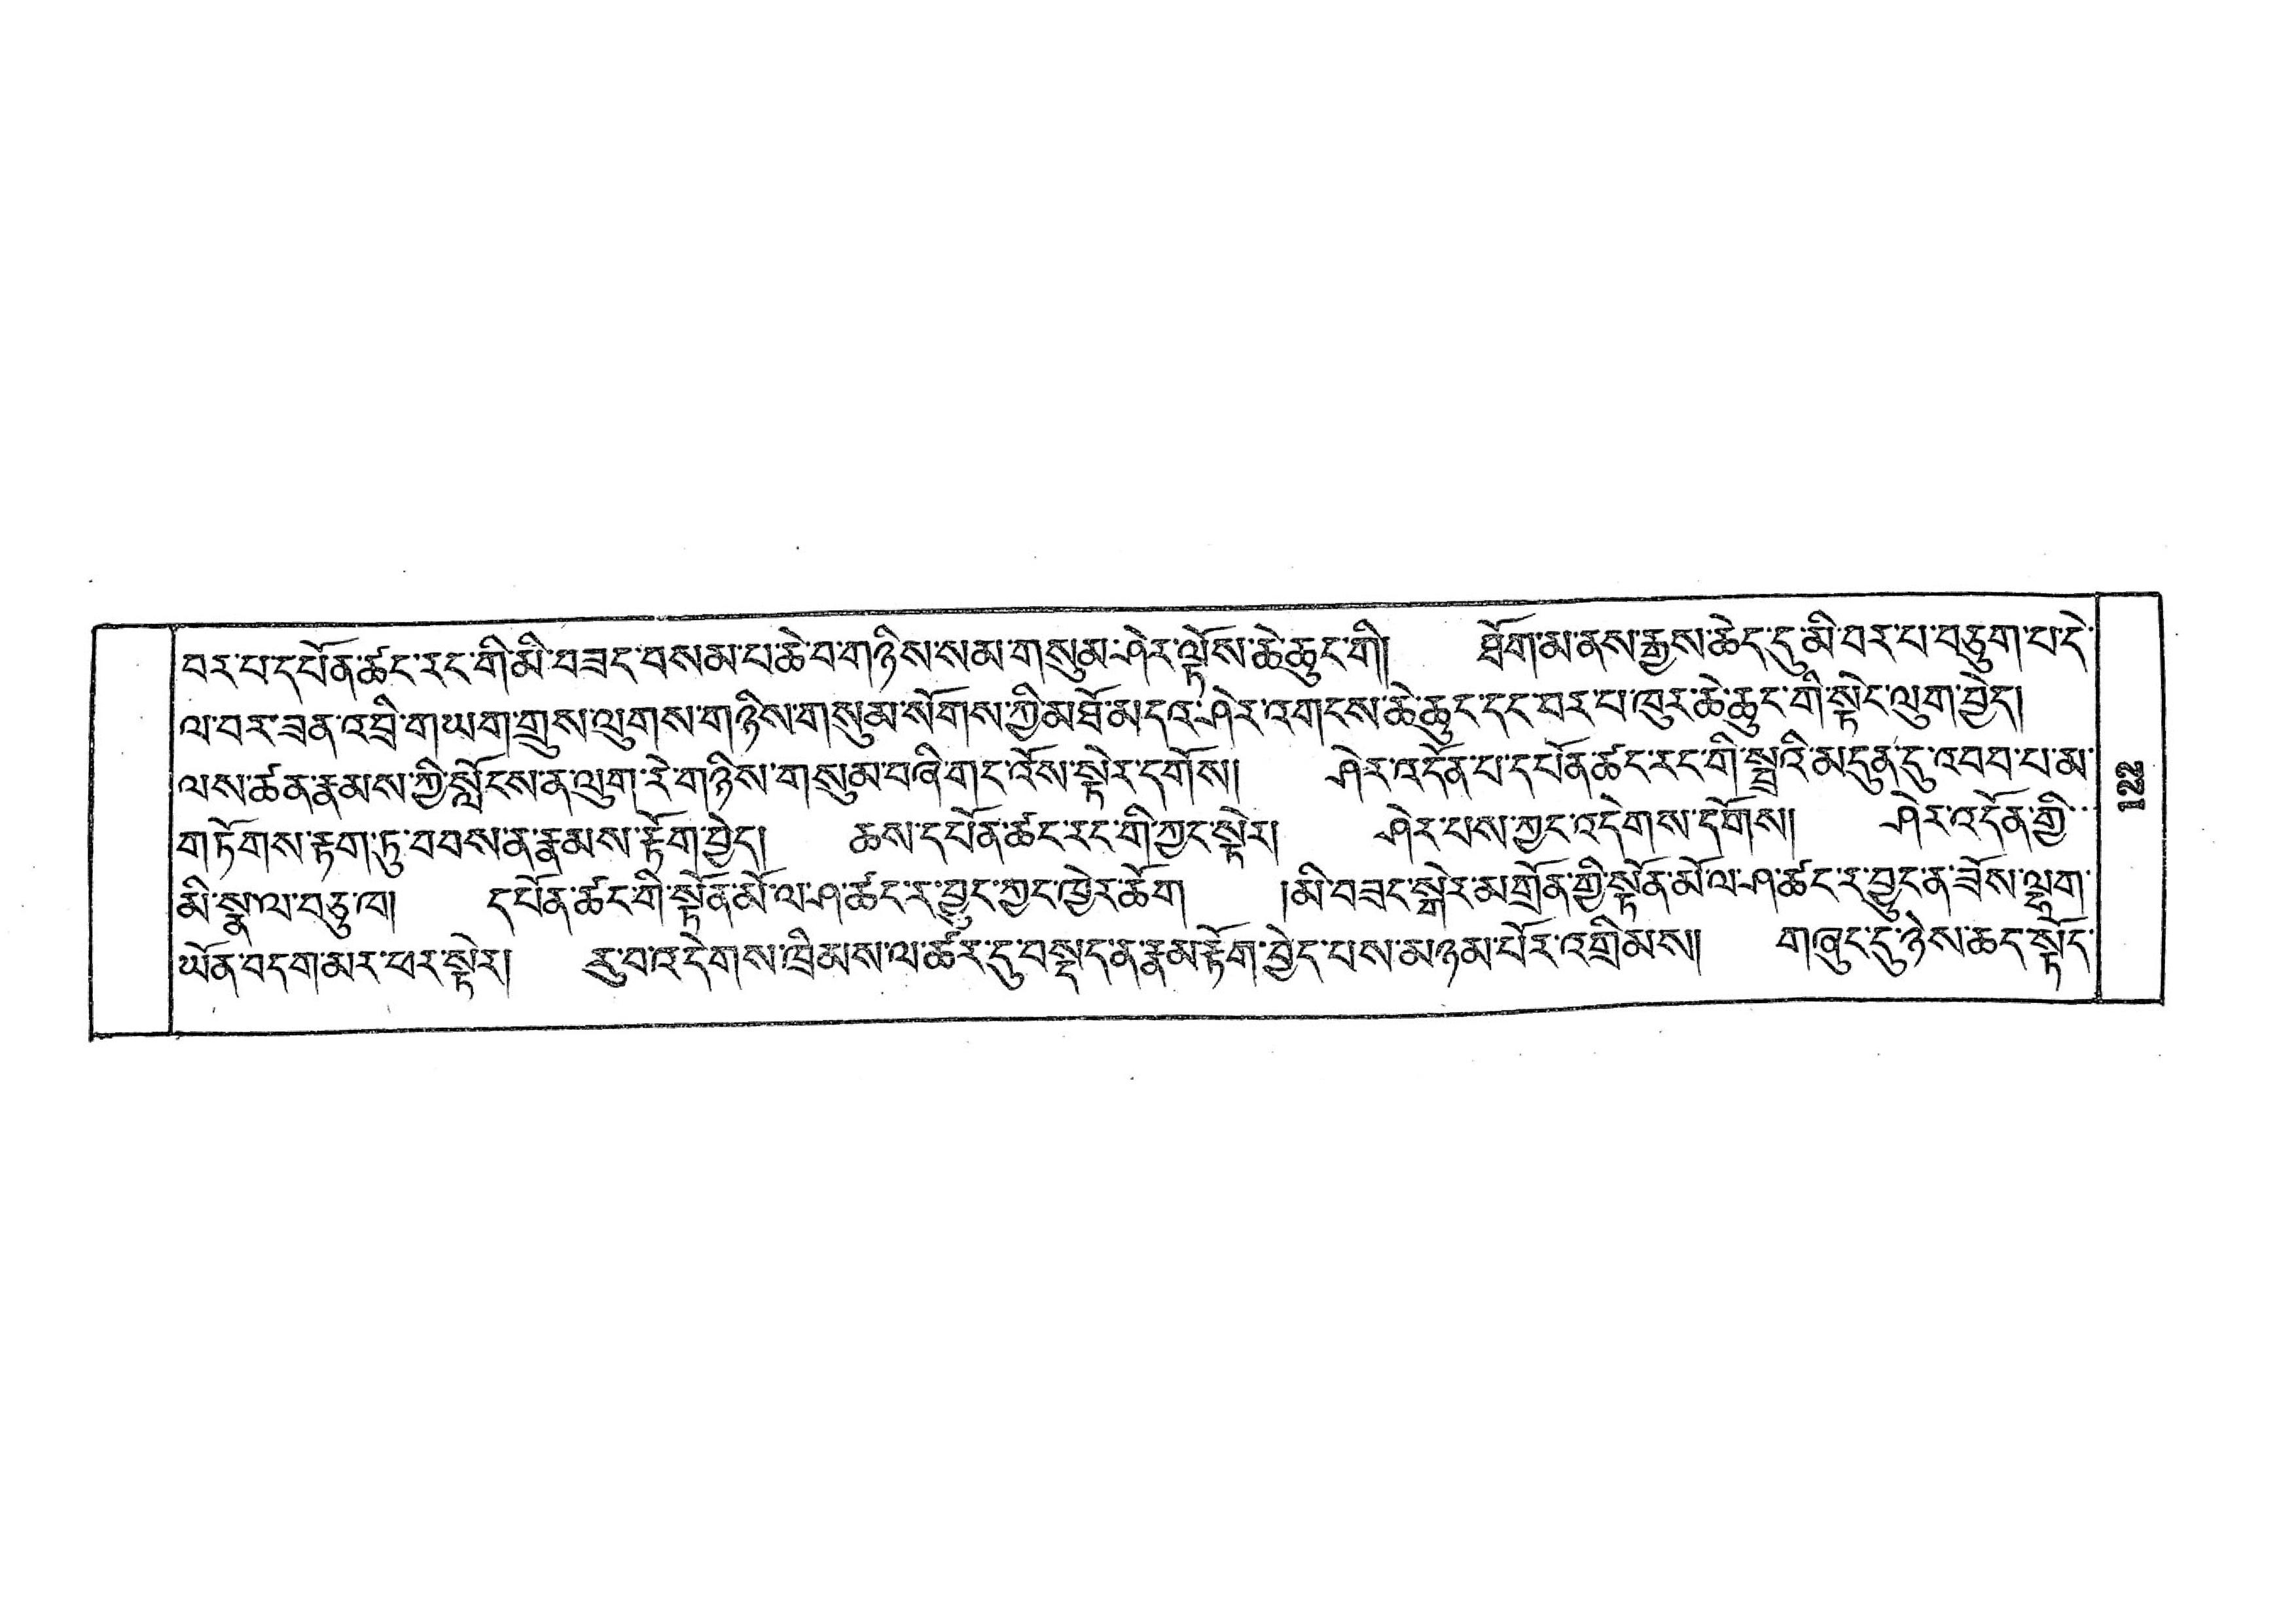བར་པ་དཔོན་ཚང་རང་གི་མི་བཟང་བསམ་པ་ཆེ་བ་གཉིས་སམ་གསུམ་ཤེར་ལྟོས་ཆེ་ཆུང་གི། ཐོག་མ་ནས་རྒྱས་ཆེད་དུ་མི་བར་པ་བཅུག་པ་དེ་
ལ་བར་ཟན་འབྲི་གཡག་གྲུས་ལུགས་གཉིས་གསུམ་སོགས་ཀྱི་མཐོ་མདའ་ཤེར་འགངས་ཆེ་ཆུང་དང་བར་པ་ཁུར་ཆེ་ཆུང་ག་སྟེང་ལུག་བྱེད།
ལས་ཚན་རྣམས་ཀྱི་སློངས་ན་ལུག་རེ་གཉིས་གསུམ་བཞི་གང་འོས་སྟེར་དགོས། ཤེར་འདོན་པ་དཔོན་ཚང་རང་གི་སྦྲའི་མདུན་དུ་འབབ་པ་མ་
གཏོགས་རྟག་ཏུ་བབས་ན་རྣམས་རྟོག་བྱེད། ཆས་དཔོན་ཚང་རང་གི་ཀྱང་སྟེར། ཤེར་པས་ཀྱང་འདེགས་དགོས། ཤེར་འདོན་རྒྱི་་་
མི་སྣ་ལ་བཅུ་ཁ། དཔོན་ཚང་གི་སྟོན་མོ་ལ་ཤ་ཚང་ར་བྱུང་ཀྱང་ཀྱེར་ཆོག །མི་བཟང་སྒེར་མགྲོན་གྱི་སྟོན་མོ་ལ་ཤ་ཚང་ར་བྱུང་ན་ཟོས་ལྷག་
ཡོན་བདག་མར་ཕར་སྟེར། རུ་བ་འདེགས་ཁྲིམས་ལ་ཚར་དུ་བསྡུད་ན་རྣམ་རྟོག་བྱེད་པས་མཉམ་པོར་འགྲིམས། གཞུང་དི་ཉེས་ཆད་སྟོད་
